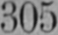305
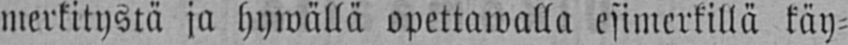merkitystä ja hywällä opettawalla esimerkillä käy-
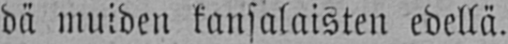dä muiden kansalaisten edellä.
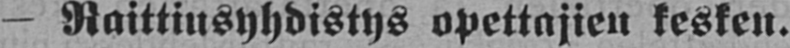— Raittiusyhdistys opettajien kesken.
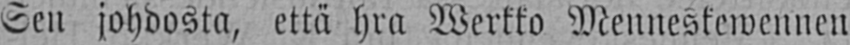Sen johdosta, että hra Werkko Menneskewennen
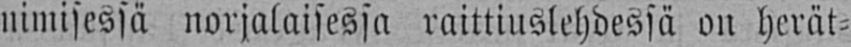nimisessä norjalaisessa raittiuslehdessä on herät-
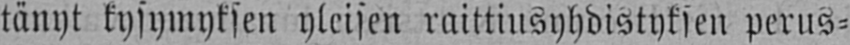tänyt kysymyksen yleisen raittiusyhdistyksen perus-
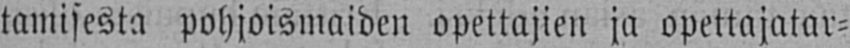tamisesta pohjoismaiden opettajien ja opettajatar-
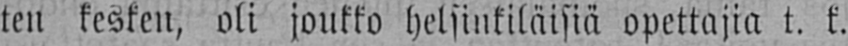ten kesken, oli joukko helsinkiläisiä opettajia t. k.
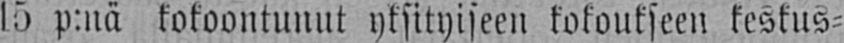15 p:nä kokoontunut yksityiseen kokoukseen keskus-
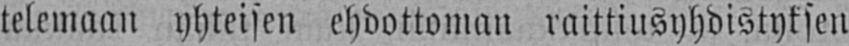telemaan yhteisen ehdottoman raittiusyhdistyksen
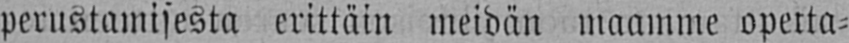perustamisesta erittäin meidän maamme opetta-
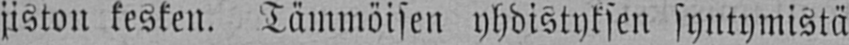jiston kesken. Tämmöisen yhdistyksen syntymistä
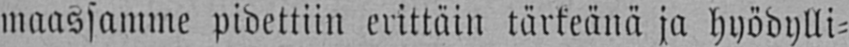maassamme pidettiin erittäin tärkeänä ja hyödylli-
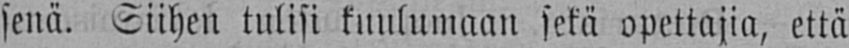senä. Siihen tulisi kuulumaan sekä opettajia, että
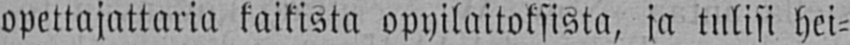opettajattaria kaikista oppilaitoksista, ja tulisi hei-
